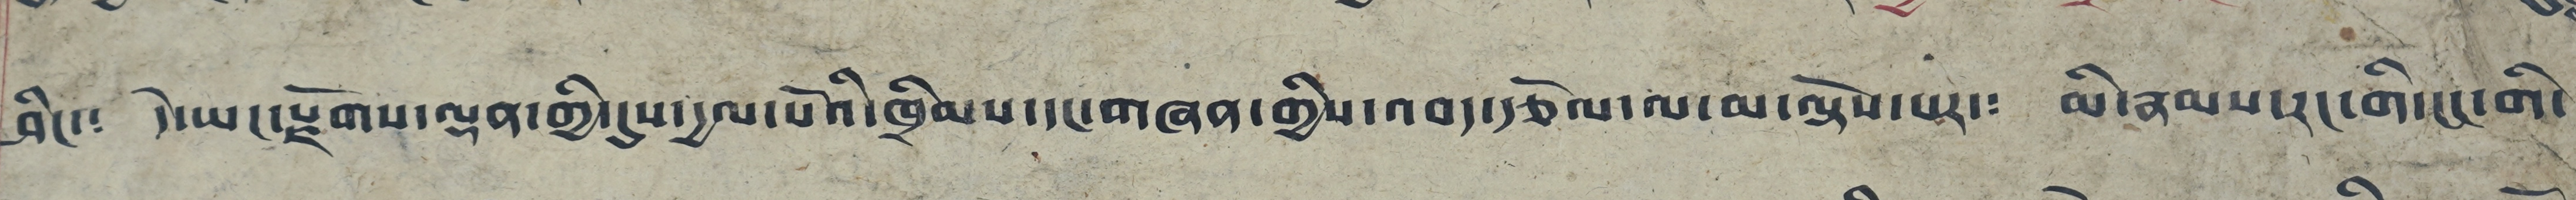ཤིང་༴ དེ་ཡང་རྫོགས་ལྡན་གྱི་དུས་དྱལ་པོའི་ཁྲིམས་དང་གཞན་གྱིས་འབད་རྩོལ་ལ་མ་ལྟོས་པར་༴ མི་རྣམས་རང་གི་ངང་གི་
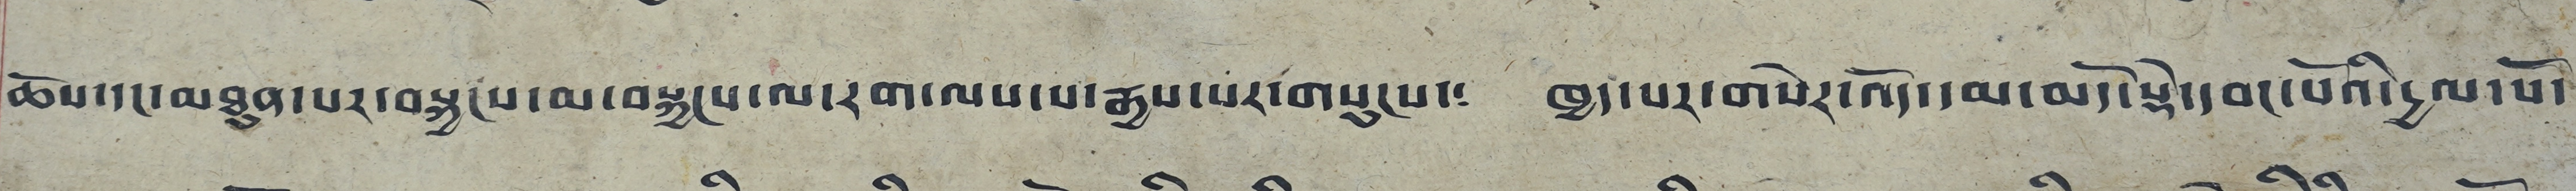ཆོས་དང་མཐུན་པར་བསྐྱངས་མ་བསྐྱངས་ལ་རག་ལས་པ་རྒྱས་པར་གསུངས་༴ ཁྱད་པར་གསེར་འོད་དམ་མདོ་སྡེ་དབང་པོའི་དྱལ་པོ་
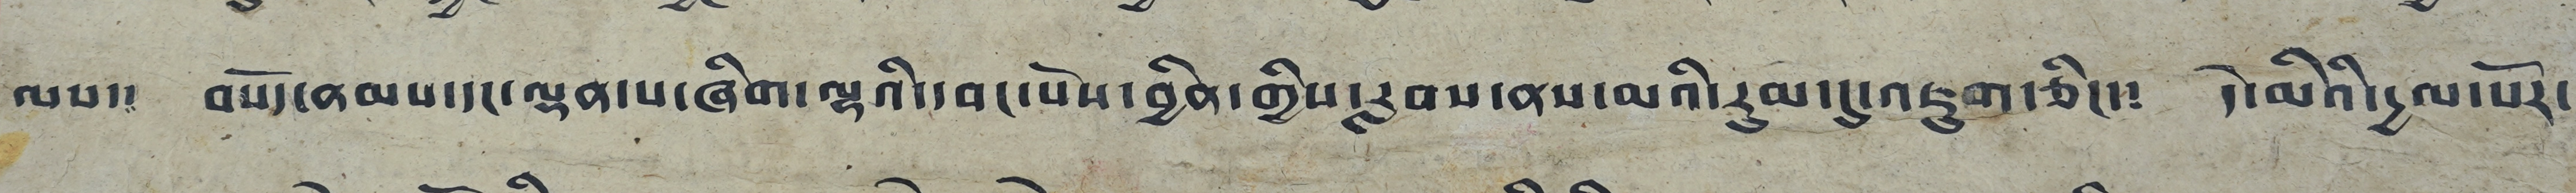ལས་༴ བསོད་ནམས་དང་ལྡན་པ་ཞིག་ལྷའི་དབང་པོས་བྱིན་གྱིས་རླབས་ནས་མའི་རུམ་དུ་འཇུག་ཅིང་༴ དེ་མིའི་རྒྱལ་པོར་
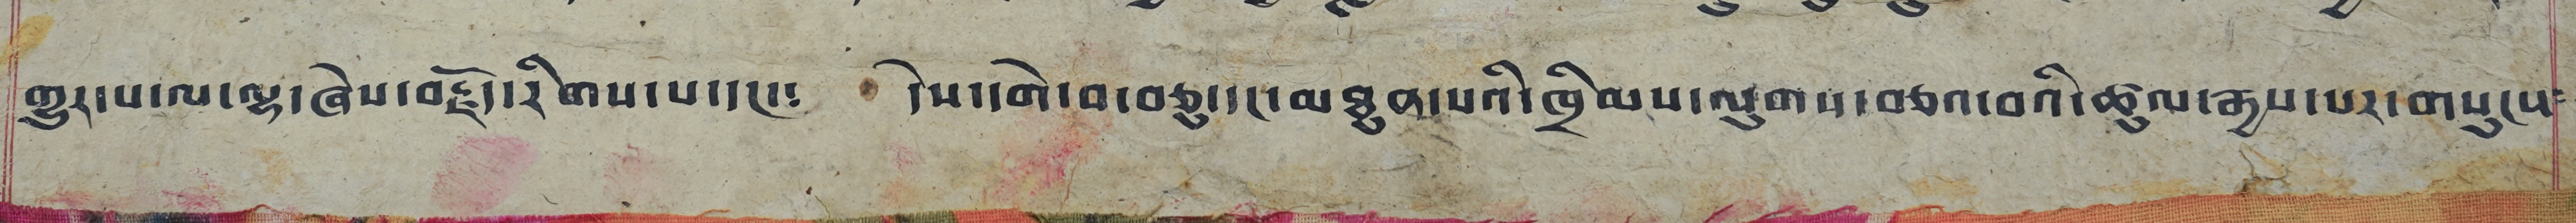གྱུར་པ་ལ་ལྷ་ཞེས་བརྗོད་རིགས་པ་དང་༴ དེས་དགེ་བ་བཅུ་དང་མཐུན་པའི་ཁྲིམས་ལུགས་བཅའ་བའི་ཚུལ་རྒྱས་པར་གསུངས༴
